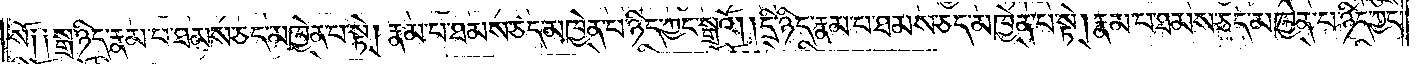སོ༑ ༑སྒྲ་ཉིད་རྣམ་པ་ཐམས་ཅད་མཁྱེན་པ་སྟེ། རྣམ་པ་ཐམས་ཅད་མཁྱེན་པ་ཉིད་ཀྱང་སྒྲའོ། །དྲི་ཉིད་རྣམ་པ་ཐམས་ཅད་མཁྱེན་པ་སྟེ། རྣམ་པ་ཐམས་ཅད་མཁྱེན་པ་ཉིད་ཀྱང་
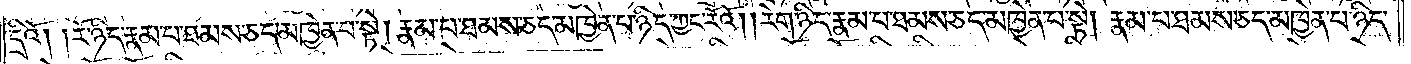དྲིའོ། །རོ་ཉིད་རྣམ་པ་ཐམས་ཅད་མཁྱེན་པ་སྟེ། རྣམ་པ་ཐམས་ཅད་མཁྱེན་པ་ཉིད་ཀྱང་རོའོ། །རེག་ཉིད་རྣམ་པ་ཐམས་ཅད་མཁྱེན་པ་སྟེ། རྣམ་པ་ཐམས་ཅད་མཁྱེན་པ་ཉིད་
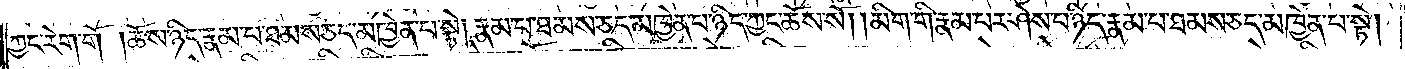ཀྱང་རེག་གོ །ཆོས་ཉིད་རྣམ་པ་ཐམས་ཅད་མཁྱེན་པ་སྟེ། རྣམ་པ་ཐམས་ཅད་མཁྱེན་པ་ཉིད་ཀྱང་ཆོས་སོ། །མིག་གི་རྣམ་པར་ཤེས་པ་ཉིད་རྣམ་པ་ཐམས་ཅད་མཁྱེན་པ་སྟེ།
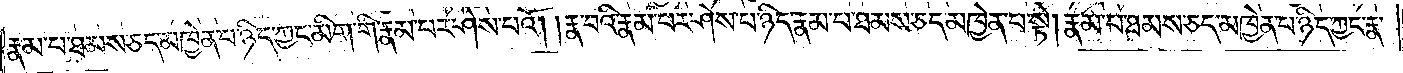རྣམ་པ་ཐམས་ཅད་མཁྱེན་པ་ཉིད་ཀྱང་མིག་གི་རྣམ་པར་ཤེས་པའོ། །རྣ་བའི་རྣམ་པར་ཤེས་པ་ཉིད་རྣམ་པ་ཐམས་ཅད་མཁྱེན་པ་སྟེ། རྣམ་པ་ཐམས་ཅད་མཁྱེན་པ་ཉིད་ཀྱང་རྣ་
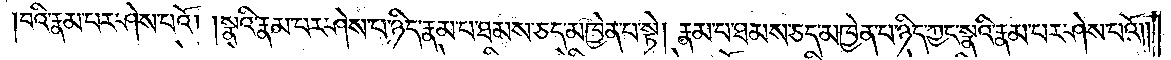བའི་རྣམ་པར་ཤེས་པའོ། །སྣའི་རྣམ་པར་ཤེས་པ་ཉིད་རྣམ་པ་ཐམས་ཅད་མཁྱེན་པ་སྟེ། རྣམ་པར་ཐམས་ཅད་མཁྱེན་པ་ཉིད་ཀྱང་སྣའི་རྣམ་པར་ཤེས་པའོ༎
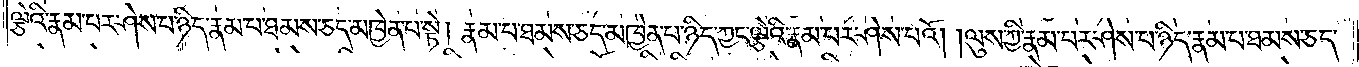ལྕེའི་རྣམ་པར་ཤེས་པ་ཉིད་རྣམ་པ་ཐམས་ཅད་མཁྱེན་པ་སྟེ། རྣམ་པ་ཐམས་ཅད་མཁྱེན་པ་ཉིད་ཀྱང་ལྕེའི་རྣམ་པར་ཤེས་པའོ། །ལུས་ཀྱི་རྣམ་པར་ཤེས་པ་ཉིད་རྣམ་པ་ཐམས་ཅད་
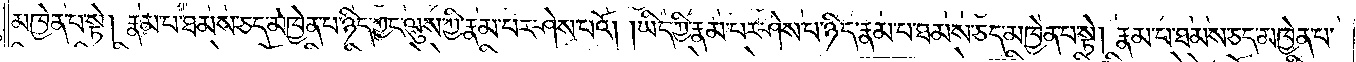མཁྱེན་པ་སྟེ། རྣམ་པ་ཐམས་ཅད་མཁྱེན་པ་ཉིད་ཀྱང་ལུས་ཀྱི་རྣམ་པར་ཤེས་པའོ། །ཡིད་ཀྱི་རྣམ་པར་ཤེས་པ་ཉིད་རྣམ་པ་ཐམས་ཅད་མཁྱེན་པ་སྟེ། རྣམ་པ་ཐམས་ཅད་མཁྱེན་པ་
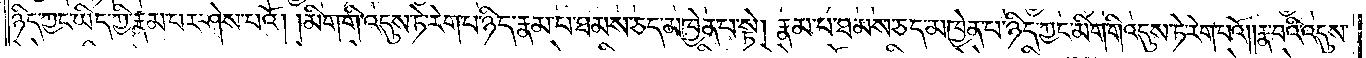ཉིད་ཀྱང་ཡིད་ཀྱི་རྣམ་པར་ཤེས་པའོ། མིག་གི་འདུས་ཏེ་རེག་པ་ཉིད་རྣམ་པ་ཐམས་ཅད་མཁྱེན་པ་སྟེ། རྣམ་པ་ཐམས་ཅད་མཁྱེན་པ་ཉིད་ཀྱང་མིག་གི་འདུས་ཏེ་རེག་པའོ། །རྣ་བའི་འདུས་
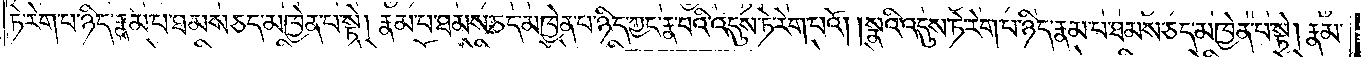ཏེ་རེག་པ་ཉིད་རྣམ་པ་ཐམས་ཅད་མཁྱེན་པ་སྟེ། རྣམ་པ་ཐམས་ཅད་མཁྱེན་པ་ཉིད་ཀྱང་རྣ་བའི་འདུས་ཏེ་རེག་པའོ། །སྣའི་འདུས་ཏེ་རེག་པ་ཉིད་རྣམ་པ་ཐམས་ཅད་མཁྱེན་པ་སྟེ། རྣམ་
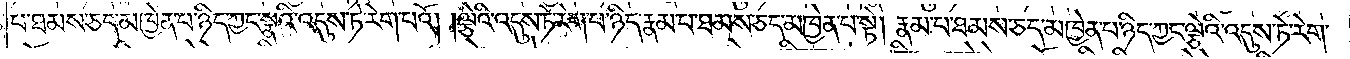པ་ཐམས་ཅད་མཁྱེན་པ་ཉིད་ཀྱང་སྣའི་འདུས་ཏེ་རེག་པའོ། །ལྕེའི་འདུས་ཏེ་རེག་པ་ཉིད་རྣམ་པ་ཐམས་ཅད་མཁྱེན་པ་སྟེ། རྣམ་པ་ཐམས་ཅད་མཁྱེན་པ་ཉིད་ཀྱང་ལྕེའི་འདུས་ཏེ་རེག་
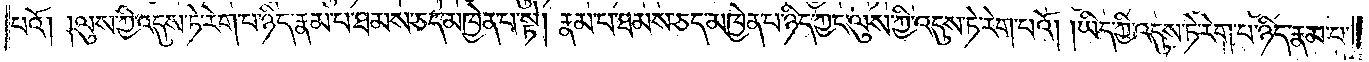པའོ། །ལུས་ཀྱི་འདུས་ཏེ་རེག་པ་ཉིད་རྣམ་པ་ཐམས་ཅད་མཁྱེན་པ་སྟེ། རྣམ་པ་ཐམས་ཅད་མཁྱེན་པ་ཉིད་ཀྱང་ལུས་ཀྱི་འདུས་ཏེ་རེག་པའོ། །ཡིད་ཀྱི་འདུས་ཏེ་རེག་པ་ཉིད་རྣམ་པ་
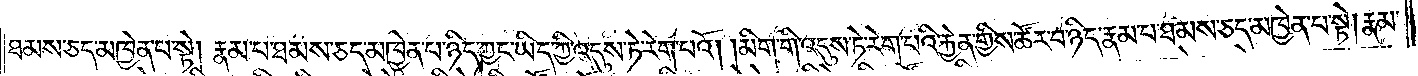ཐམས་ཅད་མཁྱེན་པ་སྟེ། རྣམ་པ་ཐམས་ཅད་མཁྱེན་པ་ཉིད་ཀྱང་ཡིད་ཀྱི་འདུས་ཏེ་རེག་པའོ། །མིག་གི་འདུས་ཏེ་རེག་པའི་རྐྱེན་གྱིས་ཚོར་བ་ཉིད་རྣམ་པ་ཐམས་ཅད་མཁྱེན་པ་སྟེ། རྣམ་
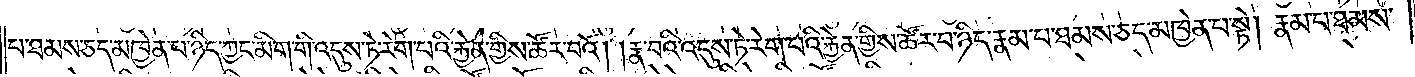པ་ཐམས་ཅད་མཁྱེན་པ་ཉིད་ཀྱང་མིག་གི་འདུས་ཏེ་རེག་པའི་རྐྱེན་གྱིས་ཚོར་བའོ། །རྣ་བའི་འདུས་ཏེ་རེག་པའི་རྐྱེན་གྱིས་ཚོར་བ་ཉིད་རྣམ་པ་ཐམས་ཅད་མཁྱེན་པ་སྟེ། རྣམ་པ་ཐམས་
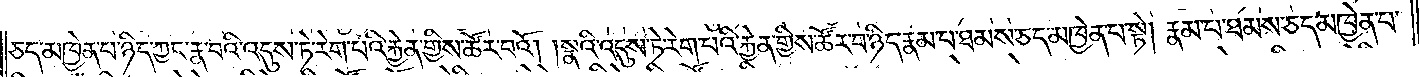ཅད་མཁྱེན་པ་ཉིད་ཀྱང་རྣ་བའི་འདུས་ཏེ་རེག་པའི་རྐྱེན་གྱིས་ཚོར་བའོ། །སྣའི་འདུས་ཏེ་རེག་པའི་རྐྱེན་གྱིས་ཚོར་བ་ཉིད་རྣམ་པ་ཐམས་ཅད་མཁྱེན་པ་སྟེ། རྣམ་པ་ཐམས་ཅད་མཁྱེན་པ་
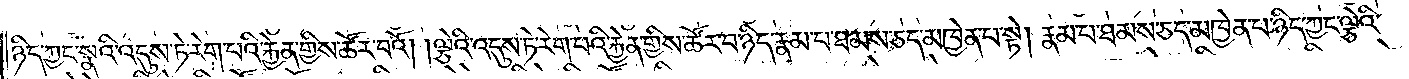ཉིད་ཀྱང་སྣའི་འདུས་ཏེ་རེག་པའི་རྐྱེན་གྱིས་ཚོར་བའོ། །ལྕེའི་འདུས་ཏེ་རེག་པའི་རྐྱེན་གྱིས་ཚོར་བ་ཉིད་རྣམ་པ་ཐམས་ཅད་མཁྱེན་པ་སྟེ། རྣམ་པ་ཐམས་ཅད་མཁྱེན་པ་ཉིད་ཀྱང་ལྕེའི་
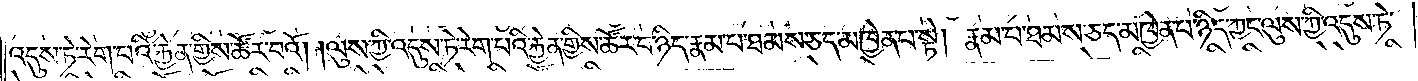འདུས་ཏེ་རེག་པའི་རྐྱེན་གྱིས་ཚོར་བའོ། །ལུས་ཀྱི་འདུས་ཏེ་རེག་པའི་རྐྱེན་གྱིས་ཚོར་བ་ཉིད་རྣམ་པ་ཐམས་ཅད་མཁྱེན་པ་སྟེ། རྣམ་པ་ཐམས་ཅད་མཁྱེན་པ་ཉིད་ཀྱང་ལུས་ཀྱི་འདུས་ཏེ་
